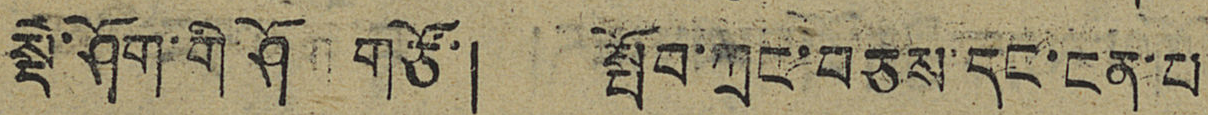སྡེ་ཤོག་གི་ཤོག་གཙོ་། སྤོབ་ཀྲང་བཅས་དང་ངན་པ
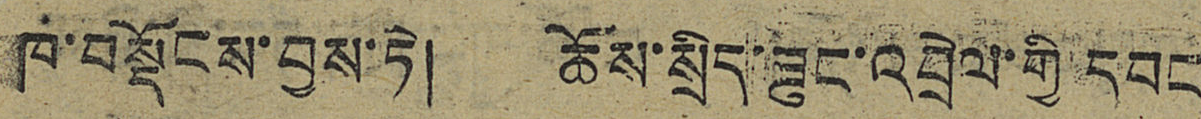ཁ་བསྡོངས་བྱས་ཏེ། ཆོས་སྲིད་ཟུང་འབྲེལ་གྱི དབང
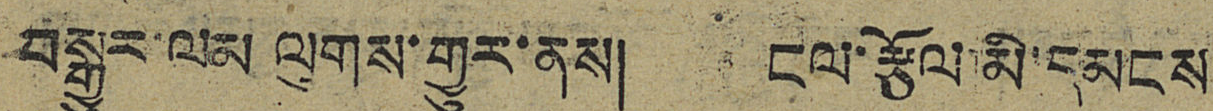བསྒྱུར་ལམ ལུགས་གྱུར་ནས། ངལ་རྩོལ་མི་དམངས
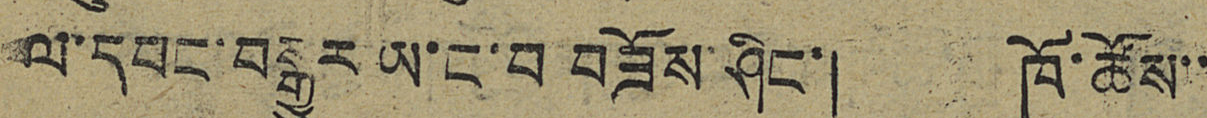ལ་དཔང་བསྒྱུར་ཡ་ང་བ་བཟོས་ཤིང་། ཁོ་ཚོས་་
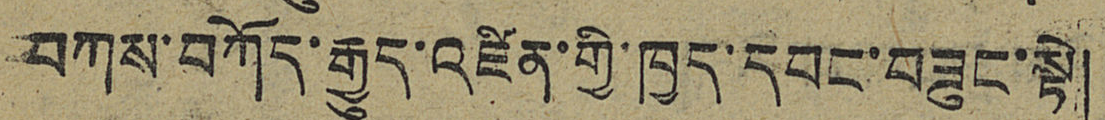བཀས་བཀོད་རྒྱུད་འཛིན་གྱི་ཁྱད་དབང་བཟུང་སྟེ།
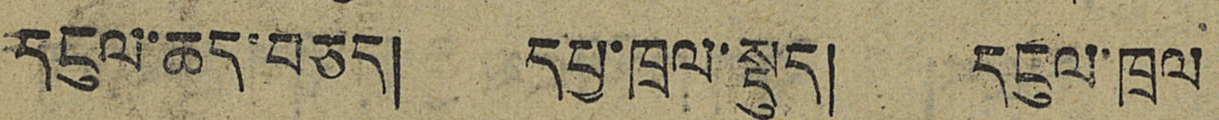དངུལ་ཆད་བཅད། དཔྱ་ཁྲལ་སྡུད། དངུལ་ཁྲུལ
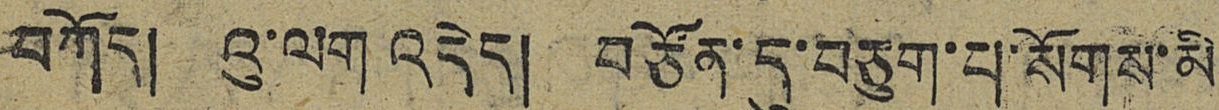བཀོད། འུ་ལག འདེད། བཙོན་དུ་བཅུག་པ་སོགས་མི
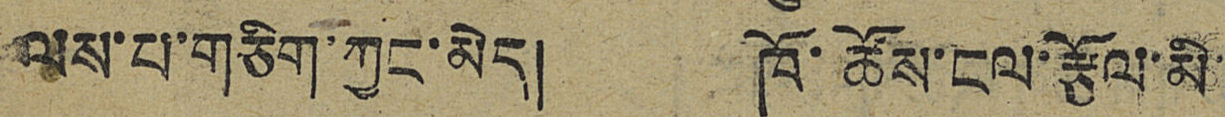ལས་པ་གཅིག་ཀྱང་མེད། ཁོ་ཚོས་ངལ་རྩོལ་མི་
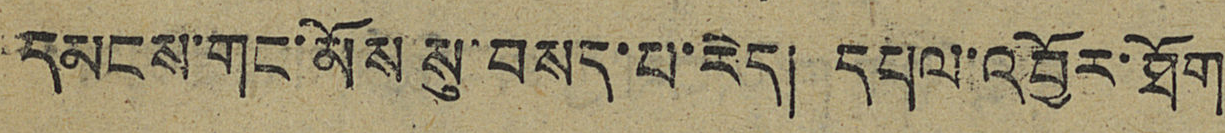དམངས་གང་མོས་སུ་བསད་པ་རེད། དཔལ་འབྱོར་ཐོག
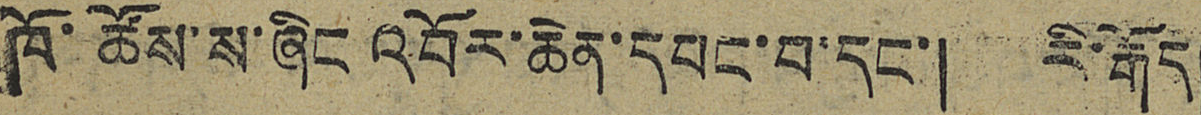ཁོ་ཚོས་ས་ཞིང འབོར་ཆེན་དབང་བ་དང་། རི་རྒོད།
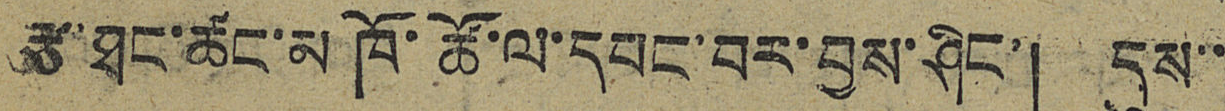རྩ་ཐང་ཚང་མཁོ་ཚོ་ལ་དབང་བར་བྱས་ཤིང་། དུས་་
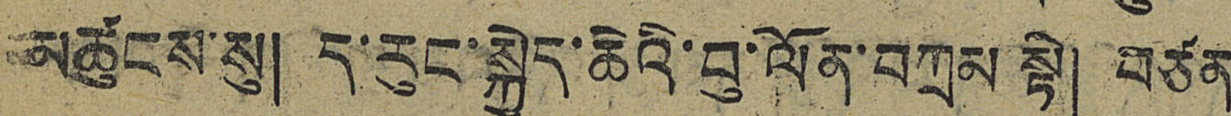མཚུངས་སུ། ད་རུང་སྐྱེད་ཆེའི་བུ་ལོན་བཀྲམ སྟེ། བཙན
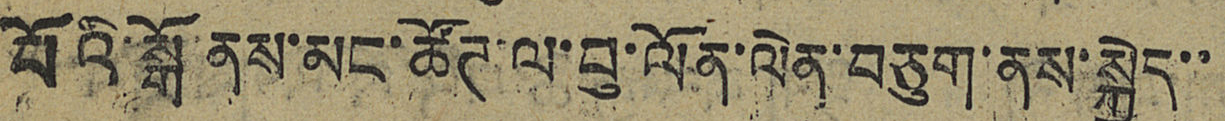པོའི་སྒོ་ནས་མང་ཚོཊ་ལ་བུ་ལོན་ལེན་བཅུག་ནས་སྐྱེད་་
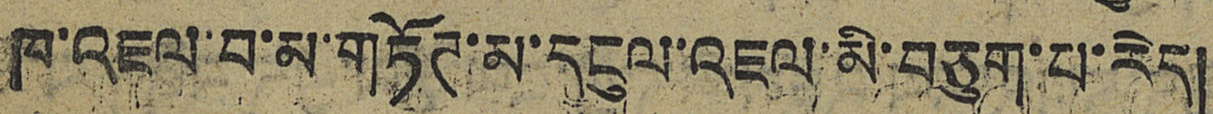ཁ་འཇལ་བ་མ་གཏོཊ་མ་དངུལ་འཇལ་མི་བཅུག་པ་རེད།
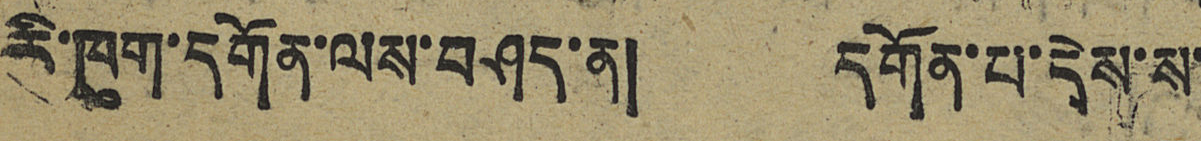རི་ཁུག་དགོན་ལས་བཤད་ན། དགོན་པ་དེས་ས་
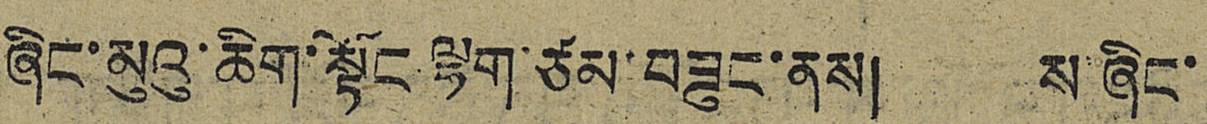ཞིང་མུའུ་ཆིག་སྟོང ལྷག་ཙམ་བཟུང་ནས། ས་ཞིང་
